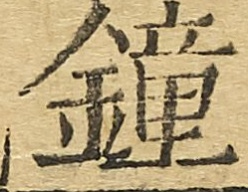鐘
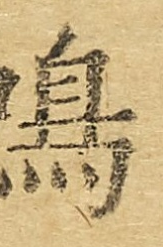鳴
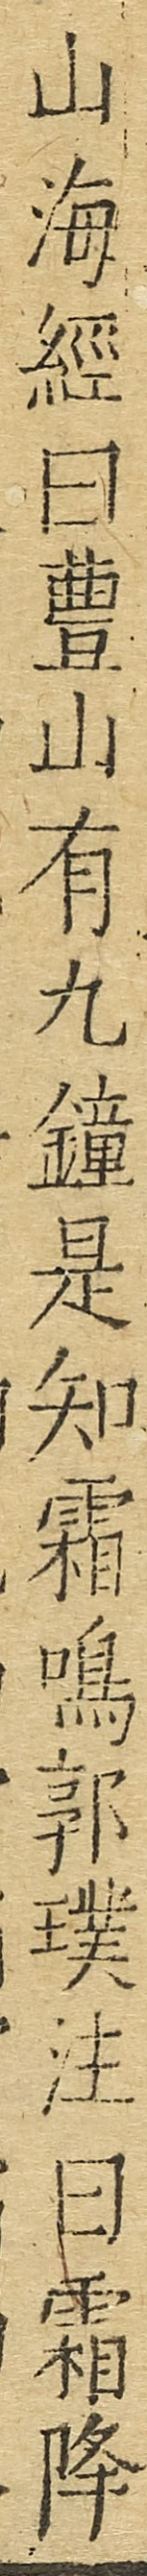山海經曰豐山有九鐘是知霜鳴郭璞注曰霜降
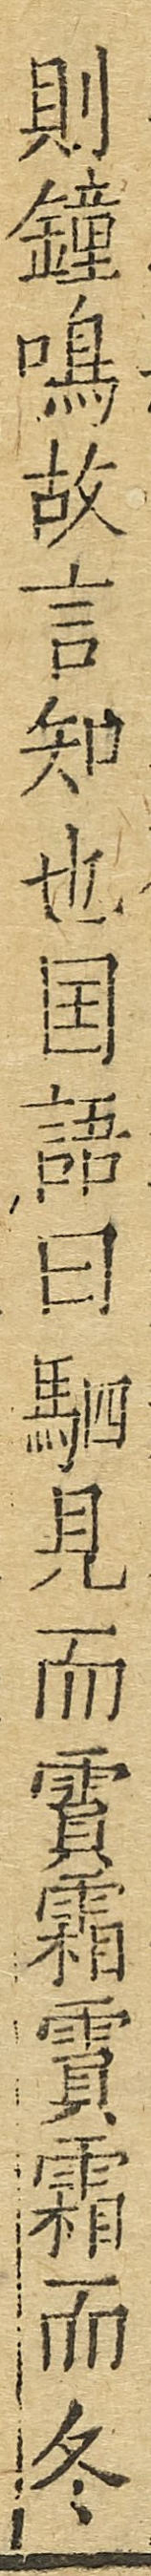則鐘鳴故言知也國語曰駟見而霣霜霣霜而冬
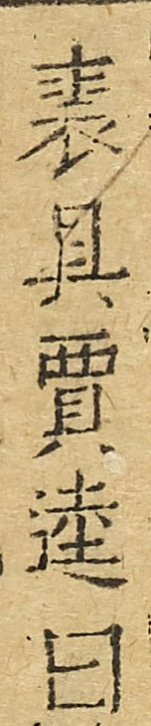裘具賈逵曰
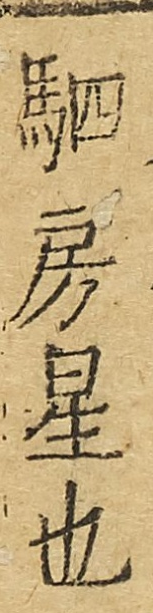駟房星也
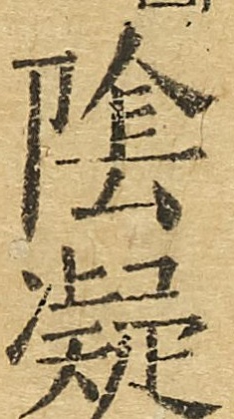陰凝
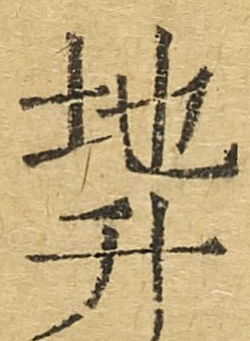地升
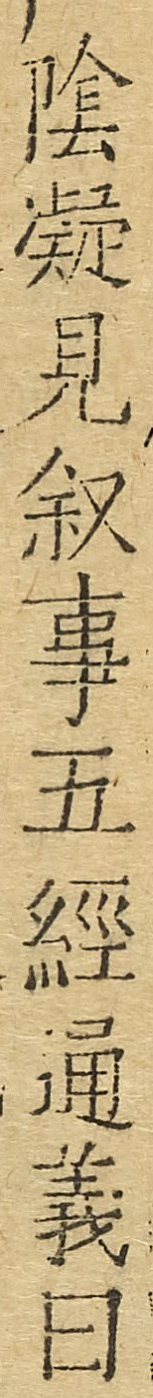陰凝見敍事五經通義曰
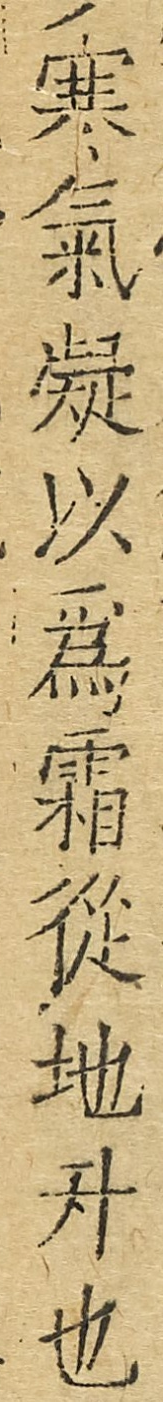寒氣凝以爲霜從地升也
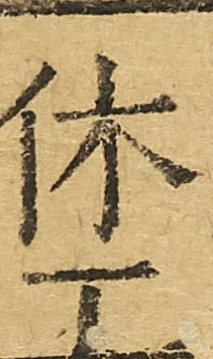休工
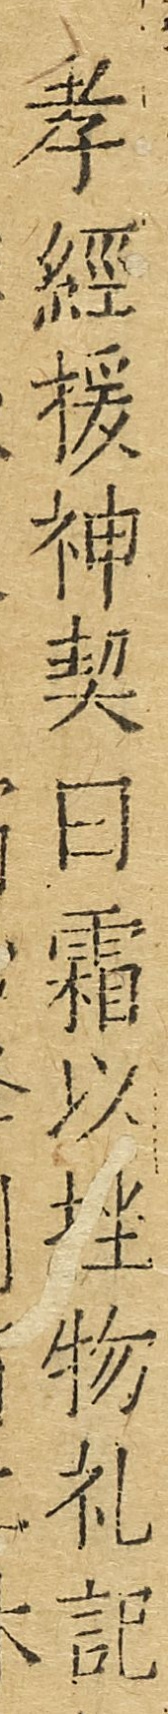孝經援神契曰霜以挫物禮記
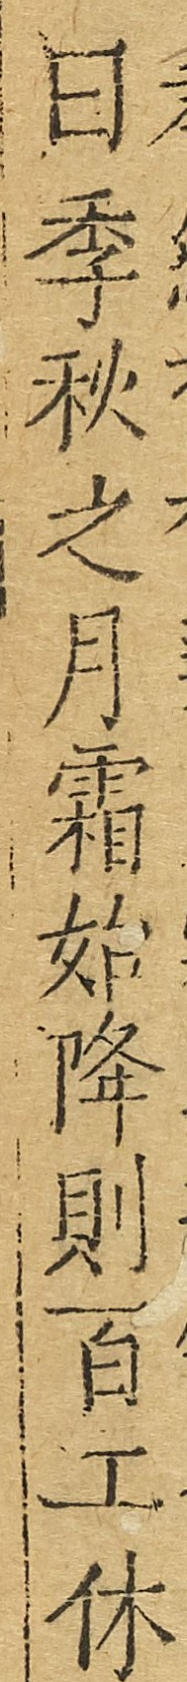曰季秋之月霜始降則百工休
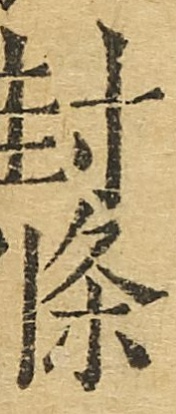封條
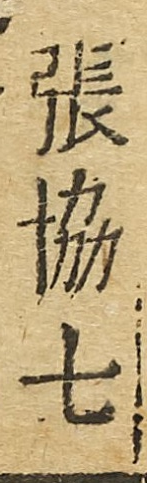張衡七
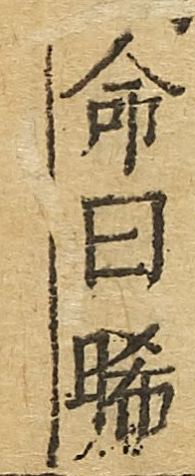命曰晞
